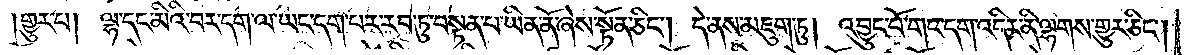གྱུར་པ། ལྷ་དང་མིའི་བར་དག་ལ་ཡང་དག་པར་རབ་ཏུ་བསྟན་པ་ཡིན་ནོ་ཞེས་སྟོན་ཅིང༌། དེ་ནས་མཇུག་ཏུ། འབྱུང་པོ་གང་དག་འདིར་ནི་ལྷགས་གྱུར་ཅིང༌།
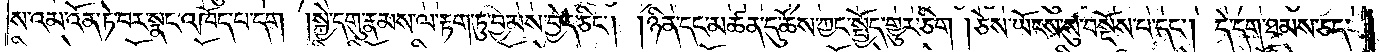ས་འམ་འོན་ཏེ་བར་སྣང་འཁོད་པ་དག །སྐྱེ་དགུ་རྣམས་ལ་རྟག་ཏུ་བྱམས་བྱེད་ཅིང༌། །ཉིན་དང་མཚན་དུ་ཆོས་ཀྱང་སྤྱོད་གྱུར་ཅིག །ཅེས་ཡོངས་སུ་བསྔོས་པ་དང༌། དེ་དག་ཐམས་ཅད་
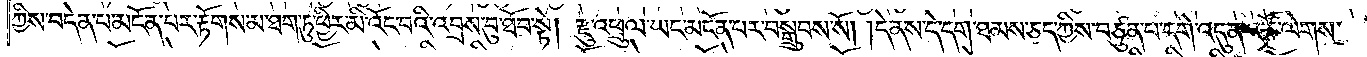ཀྱིས་བདེན་པ་མངོན་པར་རྟོགས་མ་ཐག་ཏུ་ཕྱིར་མི་འོང་བའི་འབྲས་བུ་ཐོབ་སྟེ། རྫུ་འཕྲུལ་ཡང་མངོན་པར་བསྒྲུབས་སོ། །དེ་ནས་དེ་དག་ཐམས་ཅད་ཀྱིས་བཙུན་པ་དགེ་འདུན་འཚོ་ལེགས་
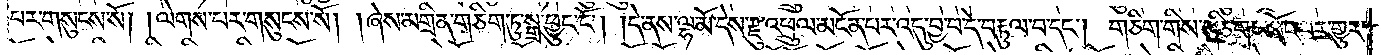པར་གསུངས་སོ། །ལེགས་པར་གསུངས་སོ། །ཞེས་མགྲིན་གཅིག་ཏུ་སྒྲ་ཕྱུང་ངོ༌། །དེ་ནས་ལྷ་མོ་དེས་རྫུ་འཕྲུལ་མངོན་པར་འདུ་བྱ་བ་དེ་བརྟུལ་བ་དང༌། གཅིག་གིས་གཅིག་མཐོང་བར་གྱུར་
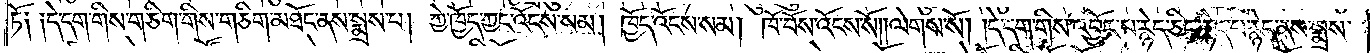ཏོ ༏ ༏ དེ་དག་གིས་གཅིག་གིས་གཅིག་མཐོང་ནས་སྨྲས་པ། ཀྱེ་ཁྱོད་ཀྱང་འོངས་སམ། ཁྱོད་འོངས་སམ། ཁོ་བོས་འོངས་སོ། །ལེགས་སོ། །དེ་དག་གིས་འབྱོར་པ་རྙེད་ཅིང་རྙེད་པ་རྙེད་ནས་སྨྲས་
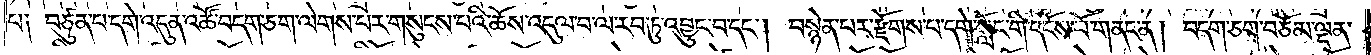པ༑ བཙུན་པ་དགེ་འདུན་འཚོ་བདག་ཅག་ལེགས་པར་གསུངས་པའི་ཆོས་འདུལ་བ་ལ་རབ་ཏུ་འབྱུང་བ་དང༌། བསྙེན་པར་རྫོགས་པ་དགེ་སློང་གི་དངོས་པོ་གནང་ན། བདག་ཅག་བཅོམ་ལྡན་
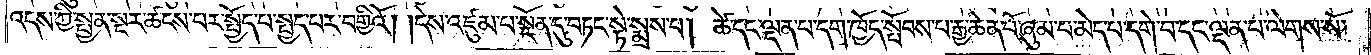འདས་ཀྱི་སྤྱན་སྔར་ཚངས་པར་སྤྱོད་པ་སྤྱད་པར་བགྱིའོ། །དེས་འཛུམ་པ་སྔོན་དུ་བཏང་སྟེ་སྨྲས་པ། ཚེ་དང་ལྡན་པ་དག་ཁྱོད་སྤོབས་པ་རྒྱ་ཆེན་པོ་ཞུམ་པ་མེད་པ་དགེ་བ་དང་ལྡན་པ་ལེགས་སོ་
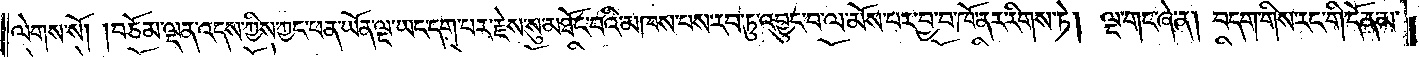ལེགས་སོ། །བཅོམ་ལྡན་འདས་ཀྱིས་ཀྱང་ཕན་ཡོན་ལྔ་ཡང་དག་པར་རྗེས་སུ་མཐོང་བའི་མཁས་པས་རབ་ཏུ་འབྱུང་བ་ལ་མོས་པར་བྱ་བ་ཁོ་ནར་རིགས་ཏེ། ལྔ་གང་ཞེ་ན། བདག་གིས་རང་གི་དོན་མ་
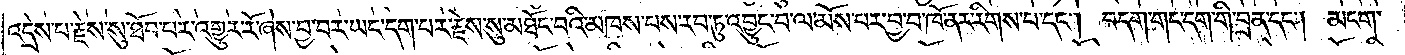འདྲེས་པ་རྗེས་སུ་ཐོབ་པར་འགྱུར་རོ་ཞེས་བྱ་བར་ཡང་དག་པར་རྗེས་སུ་མཐོང་བའི་མཁས་པས་རབ་ཏུ་འབྱུང་བ་ལ་མོས་པར་བྱ་བ་ཁོ་ནར་རིགས་པ་དང༌། བདག་གང་དག་གི་བྲན་དང༌། མངག་
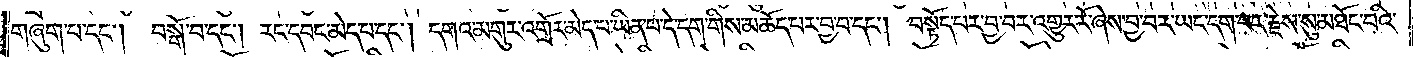གཞུག་པ་དང༌། བསྒོ་བ་དང༌། རང་དབང་མེད་པ་དང༌། དགའ་མགུར་འགྲོར་མེད་པ་ཡིན་པ་དེ་དག་གིས་མཆོད་པར་བྱ་བ་དང༌། བསྟོད་པར་བྱ་བར་འགྱུར་རོ་ཞེས་བྱ་བར་ཡང་དག་པར་རྗེས་སུ་མཐོང་བའི་
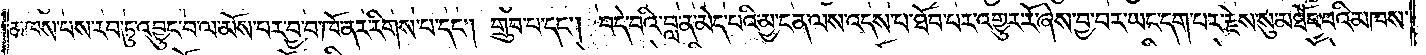མཁས་པས་རབ་ཏུ་འབྱུང་བ་ལ་མོས་པར་བྱ་བ་ཁོ་ནར་རིགས་པ་དང༌། གྲུབ་པ་དང༌། བདེ་བའི་བླ་ན་མེད་པའི་མྱ་ངན་ལས་འདས་པ་ཐོབ་པར་འགྱུར་རོ་ཞེས་བྱ་བར་ཡང་དག་པར་རྗེས་སུ་མཐོང་བའི་མཁས་
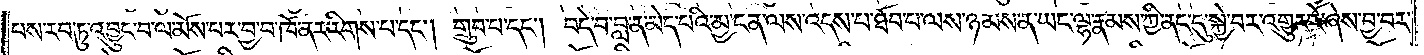པས་རབ་ཏུ་འབྱུང་བ་ལ་མོས་པར་བྱ་བ་ཁོ་ནར་རིགས་པ་དང༌། གྲུབ་པ་དང༌། བདེ་བ་བླ་ན་མེད་པའི་མྱ་ངན་ལས་འདས་པ་ཐོབ་པ་ལས་ཉམས་ན་ཡང་ལྷ་རྣམས་ཀྱི་ནང་དུ་སྐྱེ་བར་འགྱུར་རོ་ཞེས་བྱ་བར་
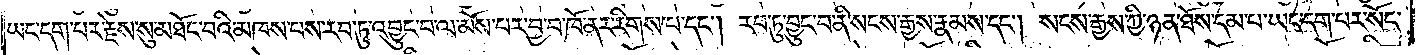ཡང་དག་པར་རྗེས་སུ་མཐོང་བའི་མཁས་པས་རབ་ཏུ་འབྱུང་བ་ལ་མོས་པར་བྱ་བ་ཁོ་ནར་རིགས་པ་དང༌། རབ་ཏུ་བྱུང་བ་ནི་སངས་རྒྱས་རྣམས་དང༌། སངས་རྒྱས་ཀྱི་ཉན་ཐོས་དམ་པ་ཡང་དག་པར་སོང་
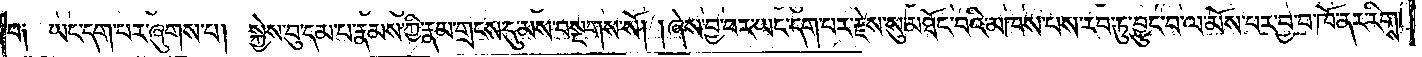བ༑ དག་པར་ཞུགས་པ། སྐྱེས་བུ་དམ་པ་རྣམས་ཀྱི་རྣམ་གྲངས་དུ་མས་བསྔགས་སོ། །ཞེས་བྱ་བར་ཡང་དག་པར་རྗེས་སུ་མཐོང་བའི་མཁས་པས་རབ་ཏུ་བྱུང་བ་ལ་མོས་པར་བྱ་བ་ཁོ་ནར་རིགས་
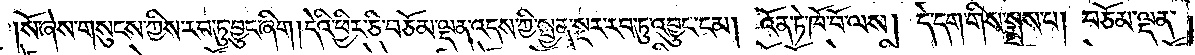སོ་ཞེས་གསུངས་ཀྱིས་རབ་ཏུ་བྱུང་ཞིག །དེའི་ཕྱིར་ཅི་བཅོམ་ལྡན་འདས་ཀྱི་སྤྱན་སྔར་རབ་ཏུ་འབྱུང་ངམ། འོན་ཏེ་ཁོ་བོ་ལས། དེ་དག་གིས་སྨྲས་པ། བཅོམ་ལྡན་
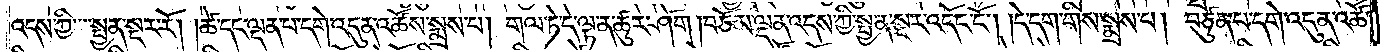འདས་ཀྱིས་སྤྱན་སྔར་རོ། །ཚེ་དང་ལྡན་པ་དགེ་འདུན་འཚོས་སྨྲས་པ། གལ་ཏེ་དེ་ལྟ་ན་ཚུར་ཤོག །བཅོམ་ལྡན་འདས་ཀྱི་སྤྱན་སྔར་འདོང་ངོ༌། །དེ་དག་གིས་སྨྲས་པ། བཙུན་པ་དགེ་འདུན་འཚོ་
